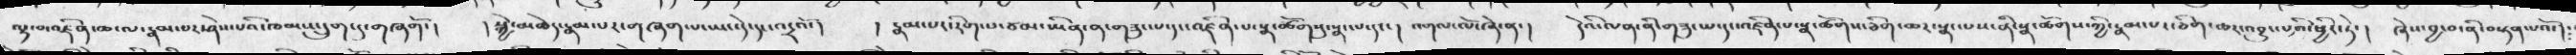ལྟ་བ་འཛིན་ཆ་ལ་རྣམ་པར་ཤེས་པའི་ཁམས་དྲུག་དུ་གཞགོ་།   ། སྐྱེ་མཆེད་རྣམ་པར་གཞག་པ་ཡང་དེ་དང་འདྲའོ་།   ། རྣམ་པར་རིག་པ་ཙམ་ཡིན་ན་གཟུང་པ་དང་འཛིན་པ་སྣ་ཚོགསུ་སྣང་པ་དང་།   འགལ་ལོ་ཞེ་ན་།   དེའི་ལན་ནི་གཟུང་པ་དང་འཛིན་པ་སྣ་ཚོགས་ཅིག་ཆར་སྣང་པས་ནི་སྣ་ཚོགས་ཀྱི་རྣམ་པར་ཅིག་ཆར་འབྱུང་པའི་ཕྱིར་ཏེ་།    ཞེས་བྱ་བ་ནི་བསྟན་པའོ་༴
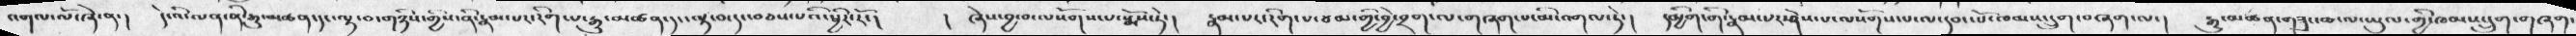འགལ་ལོ་ཞེ་ན་།  དེ་འི་ལན་ནི་རྒྱུ་མཚན་དང་ལྟ་བ་གཉིས་གྱིས་ནི་རྣམ་པར་རིག་པ་རྒྱུ་མཚན་དང་ལྟ་བ་དང་བཅས་པའི་ཕྱིར་རོ་།  ། ཞེས་བྱ་བ་ལསོགས་པ་སྨོས་ཏེ་།   རྣམ་པར་རིག་པ་ཙམ་གྱི་བྱེ་བྲག་ལ་གཞག་པ་མི་འགལ་ཏེ་།    དམྱིག་གི་རྣམ་པར་ཤེས་པ་ལསོགས་པ་ལ་དབང་པོ་ཁམས་དྲུག་བཞག་ལ་།   རྒྱུ་མཚན་གཟུང་ཆ་ལ་ཡུལ་གྱི་ཁམས་དྲུག་གཞག་
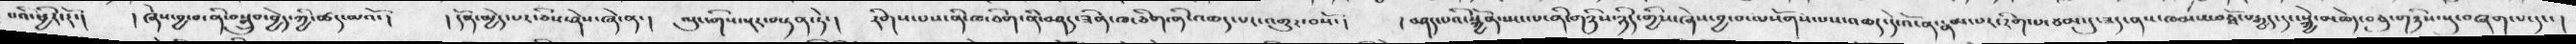པའི་ཕྱིར་རོ་།  ། ཞེས་བྱ་བ་ནི་བསྒྲུབ་བྱེད་ཀྱི་ཚད་མའོ་།   ། དོན་མྱེད་པར་ཅིས་ཤེས་ཞེ་ན་།   ལུང་གིས་སྔར་བསྟན་ཏེ་།   རིག་པས་ནི་ཁ་ཅིག་ནི་བཤད་ཟིན་ཁ་ཅིག་གི་འཆད་པར་འགྱུར་བསོ་།   ། བཤད་པའི་སྐྱོན་སྤང་པ་ནི་གཉིས་ཉིད་གྱིས་ཞེས་བྱ་བ་ལསོགས་པས་འཆད་དེ་འོ་ན་རྣམ་པར་རིག་པ་ཙམ་དུ་ཟད་ནས་ཁམས་བཅྭོ་བརྒྱད་དང་སྐྱེ་མཆེད་བཅུ་གཉིས་སུ་བཞག་པ་དང་།
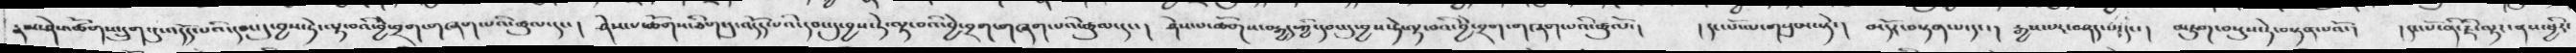རྣམ་ཤེས་ཚོགས་དྲུག་དུ་འདོད་པའི་དབང་དུ་བྱས་ཏེ་ལྟ་བའི་བྱེ་བྲག་གཞག་པའི་ཚུལ་དང་།  ཤེས་པ་ཚོགས་ཅིག་དུ་འདོད་པའི་དབང་དུ་བྱས་ཏེ་ལྟ་བའི་བྱེ་བྲག་གཞག་པའི་ཚུལ་དང་།  ཤེས་པ་ཚོགས་བརྒྱད་ཀྱི་དབང་དུ་བྱས་ཏེ་ལྟ་བའི་བྱེ་བྲག་གཞག་པའི་ཚུལོ་།   ། དང་པོ་ལ་གསུམ་སྟེ་།   མདོར་བསྟན་པ་དང་།  རྒྱས་པར་བཤད་པ་དང་།  མཇུག་བསྡུས་ཏེ་བསྟན་པའོ་།   ། དང་པོ་ནི་ཇི་ལྟར་ནས་ཕྱིར་
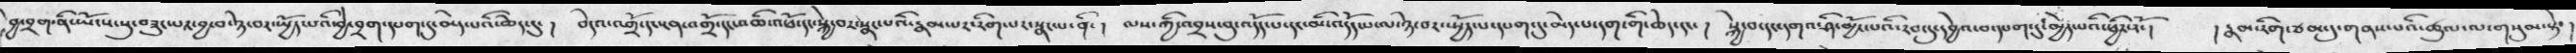བྱེ་བྲག་ནི་ཡོངས་སུ་བཟུང་པར་བྱ་བ་ཉེ་བར་ཡྱོད་པའི་བྱེ་བྲག་དཔག་དུ་མེད་པའི་ཆེད་དུ་།   བདེའ་འགྲོ་དང་ངན་འགྲོ་དང་འཆི་འཕོ་དང་སྐྱེ་བར་སྣང་པའི་རྣམ་པར་རིག་པར་སྣང་པ་ནི་།  ལས་ཀྱི་འབྲས་བུ་འདོད་པ་དང་མི་འདོད་པ་ལ་ཉེ་བར་ཡྱོད་པ་དཔག་དུ་མེད་པ་དག་གི་ཆེད་དང་།   སྐྱེ་བ་དང་དགའ་ཤི་མྱོང་པའི་རབ་དུ་དབྱེའ་བ་དཔག་དུ་མྱེད་པའི་ཕྱིར་རོ་།    ། རྣམ་རིག་ཙམ་དུ་གནས་པའི་ཚུལ་ལ་གསུམ་སྟེ་
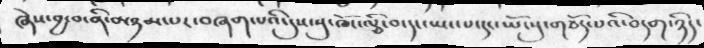ཞེས་བྱ་བ་ནི་མཉམ་པར་བཞག་པའི་དུས་སུ་ཁོང་ལྕི་བ་དང་ཡང་པ་དང་ཡོངསུ་གཅོད་པའི་བདག་ཉིད་
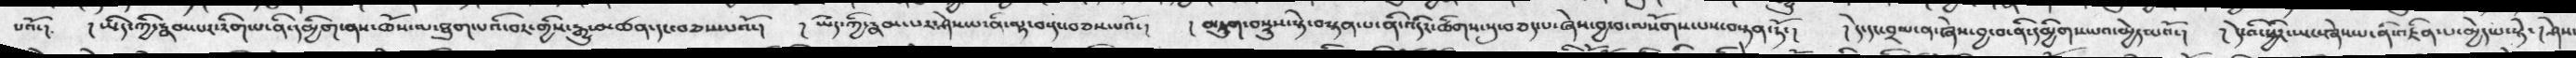པའོ་།  ། ཡིད་ཀྱི་རྣམ་པར་རིག་པ་ནི་དམྱིག་ནས་ཆོས་ལ་ཐུག་པའི་བར་གྱིས་རྒྱུ་མཚན་དང་བཅས་པའོ་།  ། ཡིད་ཀྱི་རྣམ་པར་ཤེས་པ་ནི་ལྟ་བ་དང་བཅས་པའོ་།  ། མཇུག་བསྡུས་སྟེ་བསྟན་པ་ནི་འདིར་ཚོགས་སུ་བཅད་པ་ཞེས་བྱ་བ་ལསོགས་པས་བསྟན་ཏོ་།   ། དེ་དང་བྲལ་ན་ཞེས་བྱ་བ་ནི་དམྱིགས་པའ་མྱེད་པའོ་།   ། དེ་འི་ཕྱིར་ཡང་ཞེས་པ་ནི་འཇིན་པ་མྱེད་པ་སྟེ་།   ཤེས་
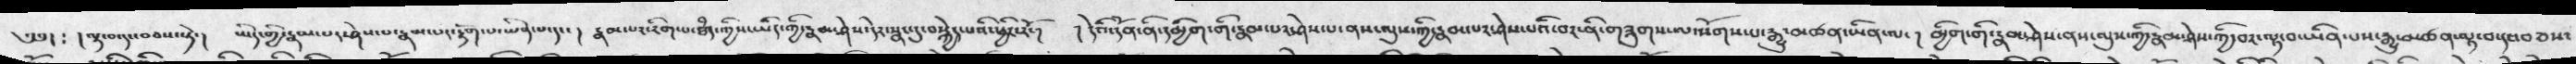༄༅།  ༴  ། ལྟ་བ་དང་བཅས་སྟེ་།  ཡིད་གྱི་རྣམ་པར་ཤེས་པ་རྣམ་པར་རྟོག་པ་ཡིན་པ་དང་  །  རྣམ་པར་རིག་པ་ཐཾད་ཀྱིས་ཡིད་ཀྱི་རྣམ་ཤེས་དེར་སྣང་དུ་བསྐྱེད་པའི་ཕྱིར་རོ་།   ། དེའི་དོན་ནི་དམྱིག་གི་རྣམ་པར་ཤེས་པ་ནས་ལུས་ཀྱི་རྣམ་པར་ཤེས་པའི་བར་ནི་གཟུགས་ལ་སོགས་པ་རྒྱུ་མཚན་ཡིན་ལ་།   མྱིག་གི་རྣམ་ཤེས་ནས་ལུས་ཀྱི་རྣམ་ཤེས་ཀྱི་བར་ལྟ་བ་ཡིན་པས་རྒྱུ་མཚན་ལྟ་བ་དང་བཅས་
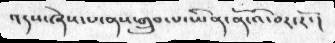འདས་ཞེས་པ་ནས་གྲུབ་པ་ཡིན་ནོ་འི་བར་རོ་།
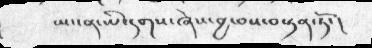ཡང་ན་ཡི་དགས་ཞེས་བྱ་བས་བསྟན་ཏོ་།
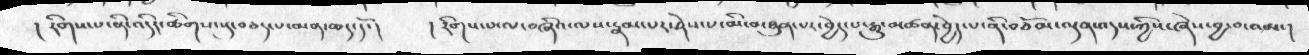། རིགས་པ་ནི་འདིར་ཚིགས་སུ་བཅད་པ་མན་ཆད་དོ་།   ། རིགས་པ་ལ་བཞིའ་ལས་རྣམ་པར་ཤེས་པ་མི་མཐུན་པར་བྱེད་པ་རྒྱུ་མཚན་བྱེད་པ་ནི་བཅོམ་ལྡན་འདས་ཀྱིས་ཞེས་བྱ་བ་འམ་།
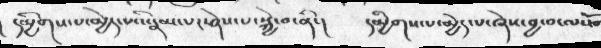།   དམྱིགས་པ་མྱེད་པའི་རྣམ་པར་ཤེས་པ་སྐྱེ་བ་ནི་།   དམྱིགས་པ་མྱེད་པ་ཞེས་བྱ་བ་ལསོག
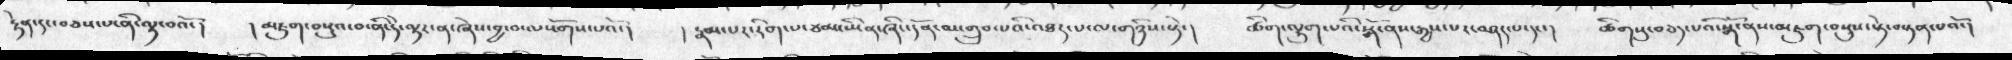རྟེན་དང་བཅས་པ་ནི་ལྟ་བའོ་།  ། མཇུག་བསྡུའ་བ་ནི་དེ་ལྟར་ན་ཞེས་བྱ་བ་ལསོགས་པའོ་།  ། རྣམ་པར་རིག་པ་ཙམ་ཡིན་ཞིང་དོན་མ་གྲུབ་པའི་འཐད་པ་ལ་གཉིས་སྟེ་།   ཚིག་ལྷུག་པའི་སྒོ་ནས་རྒྱས་པར་བཤད་པ་དང་།  ཚིགསུ་བཅད་པའོ་སྒོ་ནས་མཇུག་བསྡུས་སྟེ་བསྟན་པའོ་།
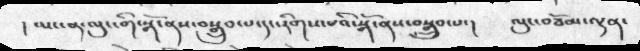། མང་ན་ལུང་གི་སྒོ་ནས་བསྒྲུབ་པ་དང་རིགས་པའི་སྒོ་ནས་བསྒྲུབ་པ་།   ལུང་བཅོམ་ལྡན་
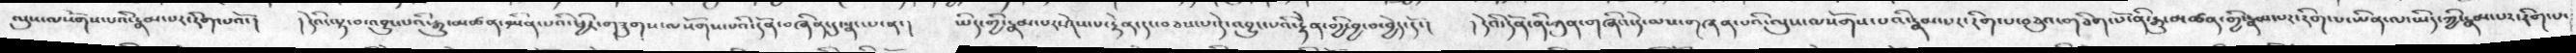ལུས་ལསོགས་པའི་རྣམ་པར་རིག་པའོ་།  ། དེའི་ལྟ་བ་འབྱུང་པའི་རྒྱུ་མཚན་ཡིན་པའི་ཕྱིར་གཟུགས་ལསོགས་པའི་དོན་བཞིན་དུ་སྣང་པ་ན་།   ཡིད་གྱི་རྣམ་པར་ཤེས་པ་རྟེན་དང་བཅས་པ་དེ་འབྱུང་པའི་རྟེན་གྱི་བྱ་བ་བྱེད་དོ་།   ། དེའི་དོན་ནི་ཀུན་གཞིའ་དེ་ལས་གཞན་པའི་ལུས་ལསོགས་པའི་རྣམ་པར་རིག་པ་བཅུའ་གཅིག་པོ་ནི་རྒྱུ་མཚན་གྱི་རྣམ་པར་རིག་པ་ཡིན་ལ་ཡིད་ཀྱི་རྣམ་པར་རིག་པ་
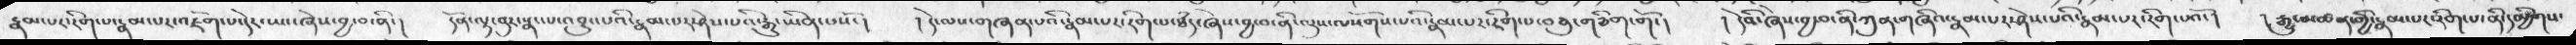རྣམ་པར་རིག་པ་རྣམ་པར་འཇོག་པ་དེར་ཡང་ཞེས་བྱ་བ་ནི་།  དོན་ལྟ་བུར་སྣང་པ་འབྱུང་པའི་རྣམ་པར་ཤེས་པའི་རྒྱུ་ཡིན་བསོ་།  ། དེ་ལས་གཞན་པའི་རྣམ་པར་རིག་པ་ཐཾད་ཞེས་བྱ་བ་ནི་ལུས་ལསོགས་པའི་རྣམ་པར་རིག་པ་བཅུ་གཅིག་གོ་།   ། དེའི་ཞེས་བྱ་བ་ནི་ཀུན་གཞིལ་རྣམ་པར་ཤེས་པའི་རྣམ་པར་རིག་པའོ་།   ། རྒྱུ་མཚན་གྱི་རྣམ་པར་རིག་པ་ནི་དམྱིགས་
